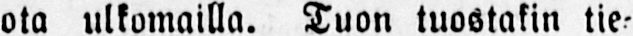ota ulkomailla. Tuon tuostakin tie-
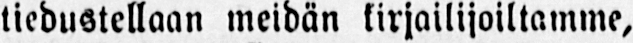tiedustellaan meidän kirjailijoiltamme,
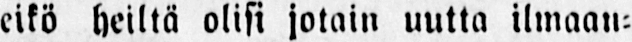eikö heiltä olisi jotain uutta ilmaan-
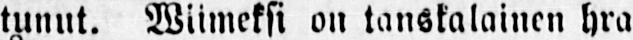tunut. Wiimeksi on tanstalainen hra
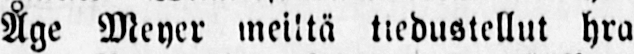Åge Meyer meiltä tiedustellut hra
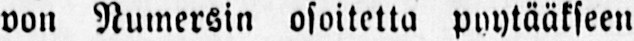von Numersin osoitetta pyytääkseen
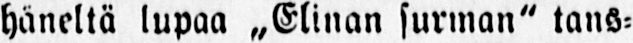häneltä lupaa „Elinan surman" tans-
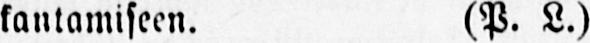kantamiseen. (P. L.)
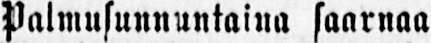Palmusunnuntaina saarnaa
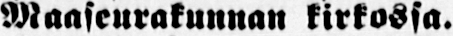Maaseurakunnan kirtossa.
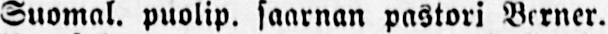Suomal. puolip. saarnan pastori Berner.
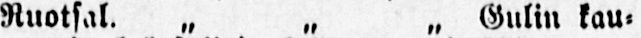Ruotsal. „ „ „ Gulin kau-
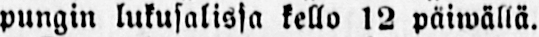pungin lukusalissa kello 12 paiwällä.
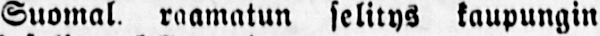Suomal, raamatun selitys kaupungin
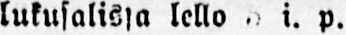lukusalissa lello 5 i. p.
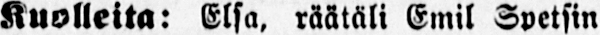Kuolleita: Elsa, räätäli Emil Spetsin
